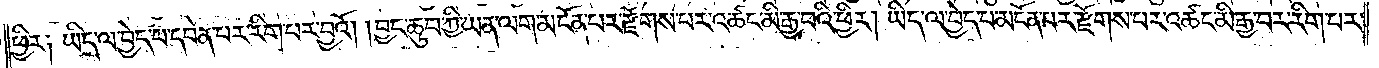ཕྱིར༏ ཡིད་ལ་བྱེད་པ་དབེན་པར་རིག་པར་བྱའོ། །བྱང་ཆུབ་ཀྱི་ཡན་ལག་མངོན་པར་རྫོགས་པར་འཚང་མི་རྒྱ་བའི་ཕྱིར། ཡིད་ལ་བྱེད་པ་མངོན་པར་རྫོགས་པར་འཚང་མི་རྒྱ་བར་རིག་པར་
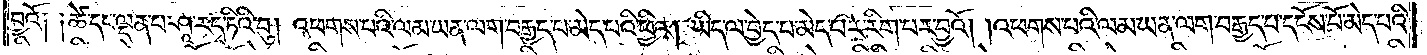བྱའོ༏ ༏ཚེ་དང་ལྡན་པ་ཤཱ་ར་དྭ་ཏིའི་བུ། འཕགས་པའི་ལམ་ཡན་ལག་བརྒྱད་པ་མེད་པའི་ཕྱིར། ཡིད་ལ་བྱེད་པ་མེད་པར་རིག་པར་བྱའོ། །འཕགས་པའི་ལམ་ཡན་ལག་བརྒྱད་པ་དངོས་པོ་མེད་པའི་
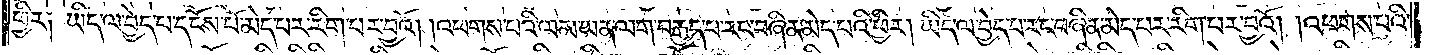ཕྱིར༏ ཡིད་ལ་བྱེད་པ་དངོས་པོ་མེད་པར་རིག་པར་བྱའོ། །འཕགས་པའི་ལམ་ཡན་ལག་བརྒྱད་པ་རང་བཞིན་མེད་པའི་ཕྱིར། ཡིད་ལ་བྱེད་པ་རང་བཞིན་མེད་པར་རིག་པར་བྱའོ། །འཕགས་པའི་
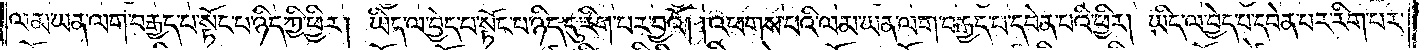ལམ་ཡན་ལག་བརྒྱད་པ་སྟོང་པ་ཉིད་ཀྱི་ཕྱིར། ཡིད་ལ་བྱེད་པ་སྟོང་པ་ཉིད་དུ་རིག་པར་བྱའོ། །འཕགས་པའི་ལམ་ཡན་ལག་བརྒྱད་པ་དབེན་པའི་ཕྱིར། ཡིད་ལ་བྱེད་པ་དབེན་པར་རིག་པར་
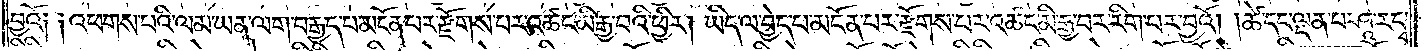བྱའོ༏ ༏འཕགས་པའི་ལམ་ཡན་ལག་བརྒྱད་པ་མངོན་པར་རྫོགས་པར་འཚང་མི་རྒྱ་བའི་ཕྱིར། ཡིད་ལ་བྱེད་པ་མངོན་པར་རྫོགས་པར་འཚང་མི་རྒྱ་བར་རིག་པར་བྱའོ། །ཚེ་དང་ལྡན་པ་ཤཱ་ར་དྭ་
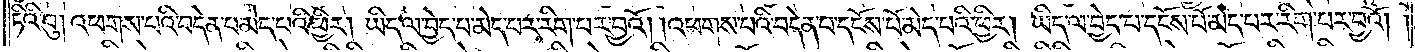ཏིའི་བུ། འཕགས་པའི་བདེན་པ་མེད་པའི་ཕྱིར། ཡིད་ལ་བྱེད་པ་མེད་པར་རིག་པར་བྱའོ། །འཕགས་པའི་བདེན་པ་དངོས་པོ་མེད་པའི་ཕྱིར། ཡིད་ལ་བྱེད་པ་དངོས་པོ་མེད་པར་རིག་པར་བྱའོ། །
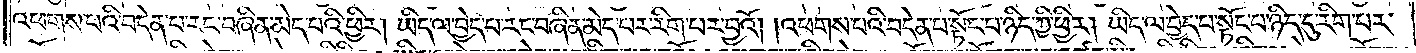འཕགས་པའི་བདེན་པ་རང་བཞིན་མེད་པའི་ཕྱིར། ཡིད་ལ་བྱེད་པ་རང་བཞིན་མེད་པར་རིག་པར་བྱའོ། །འཕགས་པའི་བདེན་པ་སྟོང་པ་ཉིད་ཀྱི་ཕྱིར། ཡིད་ལ་བྱེད་པ་སྟོང་པ་ཉིད་དུ་རིག་པར་
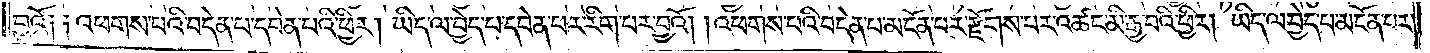བྱའོ༏ ༏འཕགས་པའི་བདེན་པ་དབེན་པའི་ཕྱིར། ཡིད་ལ་བྱེད་པ་དབེན་པར་རིག་པར་བྱའོ། །འཕགས་པའི་བདེན་པ་མངོན་པར་རྫོགས་པར་འཚང་མི་རྒྱ་བའི་ཕྱིར། ཡིད་ལ་བྱེད་པ་མངོན་པར་
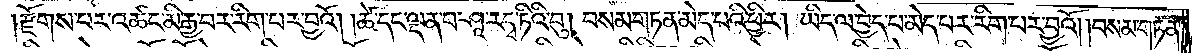རྫོགས་པར་འཚང་མི་རྒྱ་བར་རིག་པར་བྱའོ། །ཚེ་དང་ལྡན་པ་ཤཱ་ར་དྭ་ཏིའི་བུ། བསམ་གཏན་མེད་པའི་ཕྱིར། ཡིད་ལ་བྱེད་པ་མེད་པར་རིག་པར་བྱའོ། །བསམ་གཏན་
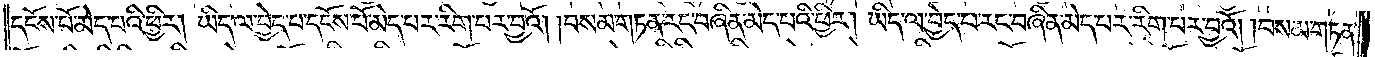དངོས་པོ་མེད་པའི་ཕྱིར། ཡིད་ལ་བྱེད་པ་དངོས་པོ་མེད་པར་རིག་པར་བྱའོ། །བསམ་གཏན་རང་བཞིན་མེད་པའི་ཕྱིར། ཡིད་ལ་བྱེད་པ་རང་བཞིན་མེད་པར་རིག་པར་བྱའོ། །བསམ་གཏན་
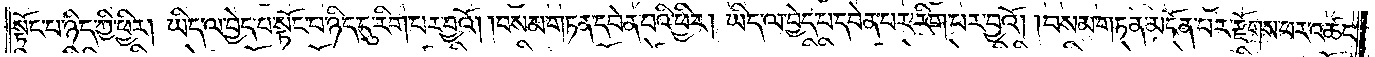སྟོང་པ་ཉིད་ཀྱི་ཕྱིར། ཡིད་ལ་བྱེད་པ་སྟོང་པ་ཉིད་དུ་རིག་པར་བྱའོ། །བསམ་གཏན་དབེན་པའི་ཕྱིར། ཡིད་ལ་བྱེད་པ་དབེན་པར་རིག་པར་བྱའོ། །བསམ་གཏན་མངོན་པར་རྫོགས་པར་འཚང་
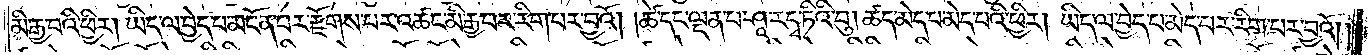མི་རྒྱ་བའི་ཕྱིར། ཡིད་ལ་བྱེད་པ་མངོན་པར་རྫོགས་པར་འཚང་མི་རྒྱ་བར་རིག་པར་བྱའོ། །ཚེ་དང་ལྡན་པ་ཤཱ་ར་དྭ་ཏིའི་བུ། ཚད་མེད་པ་མེད་པའི་ཕྱིར༑ ཡིད་ལ་བྱེད་པ་མེད་པར་རིག་པར་བྱའོ། །
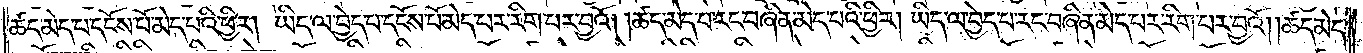ཚད་མེད་པ་དངོས་པོ་མེད་པའི་ཕྱིར། ཡིད་ལ་བྱེད་པ་དངོས་པོ་མེད་པར་རིག་པར་བྱའོ། །ཚད་མེད་པ་རང་བཞིན་མེད་པའི་ཕྱིར། ཡིད་ལ་བྱེད་པ་རང་བཞིན་མེད་པར་རིག་པར་བྱའོ། །ཚད་མེད་
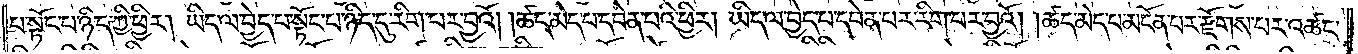པ་སྟོང་པ་ཉིད་ཀྱི་ཕྱིར། ཡིད་ལ་བྱེད་པ་སྟོང་པ་ཉིད་དུ་རིག་པར་བྱའོ། །ཚད་མེད་པ་དབེན་པའི་ཕྱིར། ཡིད་ལ་བྱེད་པ་དབེན་པར་རིག་པར་བྱའོ། །ཚད་མེད་པ་མངོན་པར་རྫོགས་པར་འཚང་
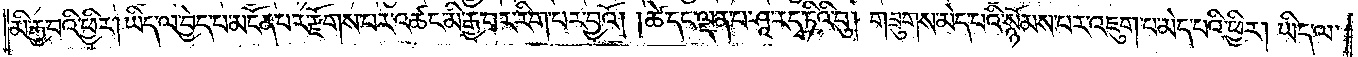མི་རྒྱ་བའི་ཕྱིར། ཡིད་ལ་བྱེད་པ་མངོན་པར་རྫོགས་པར་འཚང་མི་རྒྱ་བར་རིག་པར་བྱའོ། །ཚེ་དང་ལྡན་པ་ཤཱ་ར་དྭ་ཏིའི་བུ། གཟུགས་མེད་པའི་སྙོམས་པར་འཇུག་པ་མེད་པའི་ཕྱིར། ཡིད་ལ་
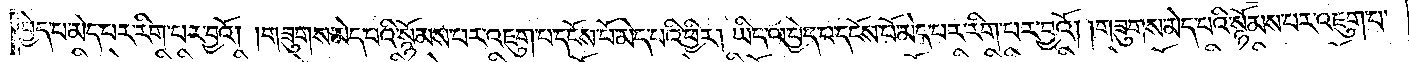བྱེད་པ་མེད་པར་རིག་པར་བྱའོ། །གཟུགས་མེད་པའི་སྙོམས་པར་འཇུག་པ་དངོས་པོ་མེད་པའི་ཕྱིར། ཡིད་ལ་བྱེད་པ་དངོས་པོ་མེད་པར་རིག་པར་བྱའོ། །གཟུགས་མེད་པའི་སྙོམས་པར་འཇུག་པ་
